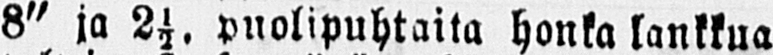8" ja 2½. puolipuhtaita honka lankkua
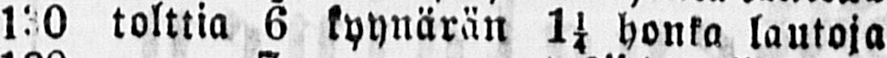13O tolttia 6 kyynärän 1¼ honka lautoja
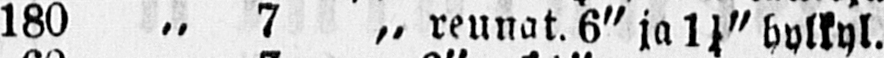180 „ 7 „ reunat. 6" ja 1¼" hylkyl.
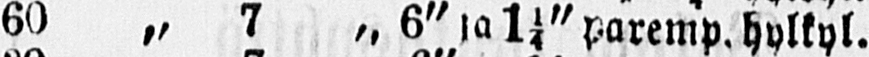60 „ 7 „ 6" ja 1¼" paremp.hylkyl.
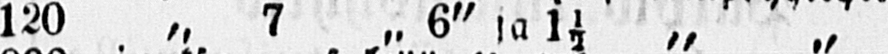120 „ 7 „ 6" ja 1½ „ „
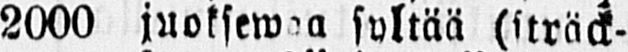2000 juoksewaa syltää (sträck-
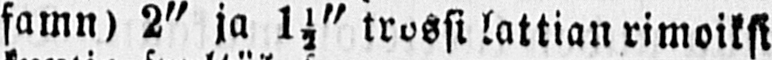famn) 2" ja 1½" trossi lattian rimoiksi
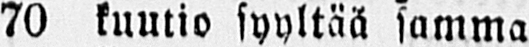70 kuutio syyltää samma
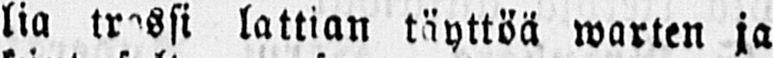lia trassi lattian täyttöä warten ja
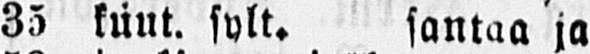35 kuut. sylt. santaa ja
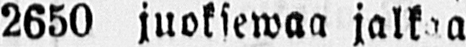2650 juoksewaa jalkaa
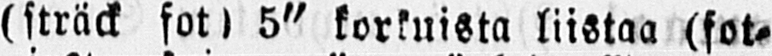(sträck fot) 5" korkuista liistaa (fot.
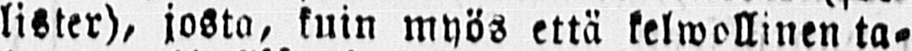lister), josta, kuin myös että kelwollinen ta-
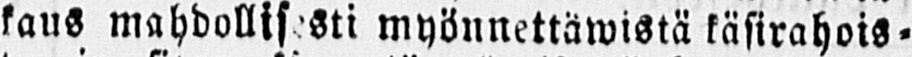kaus mahdollisesti myönnettäwistä käsirahois-
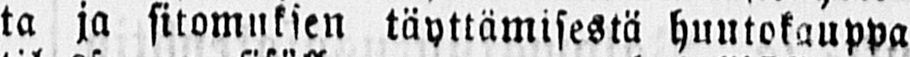ta ja sitomuksen täyttämisestä huutokauppa
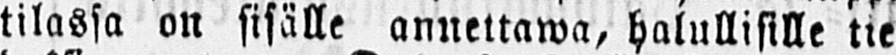tilassa on sisälle annettawa, halullisille tie
